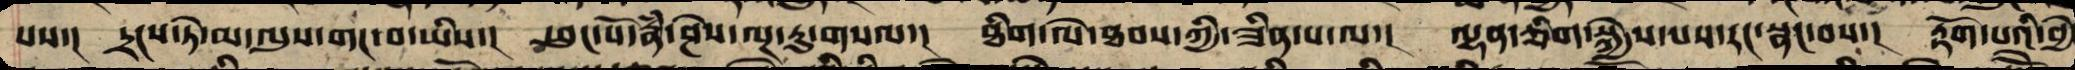པས་། དྲངས་ཏེ་མ་ལུས་གང་བ་ཡིས་། ཕུང་པོ་རྣཾ་ཤེས་ལྔ་རུ་གསལ་། ཐིག་ལེ་ཐབས་ཀྱིས་ཟིན་པ་ལ་། ལྷན་ཅིག་སྐྱེས་པར་རང་སྣང་བས་། རྟོག་པའི་བྱེ
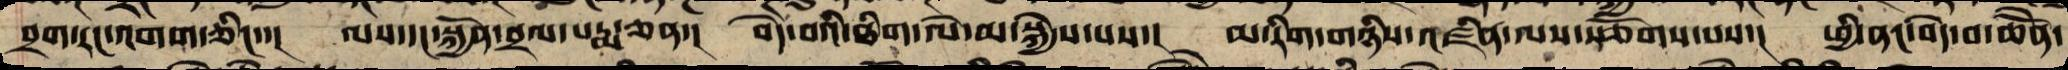བྲག་རང་འགགས་ཤིང་་།  ལས་དང་སྐྱོན་བྲལ་པདྨ་ཅན་།  བདེ་བའི་ཐིག་ལེ་མ་སྐྱེས་པས་།  མ་རིག་གཉིས་འཛིན་ལ་རྩོགས་པའི་།  ཕྱི་ནང་བདེ་བ་ཆེནོ་
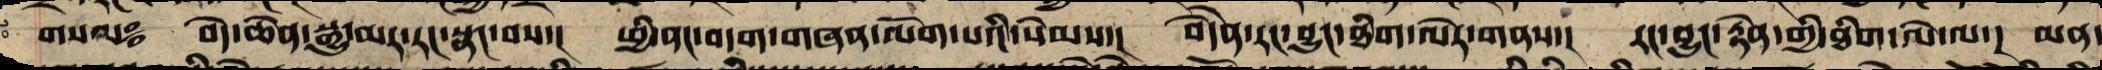གསལ༔  བདེ་ཆེན་སྒྱུ་མར་རང་སྣང་བས་་།  ཕྱི་ནང་བདག་གཞན་ལོག་པའི་སེམས་།  བདེཻན་རང་བྱུང་ཐིག་ལེར་གནས་།  རང་བྱུང་རྟེན་གྱི་ཐིག་ལེ་ལ་།  མན་
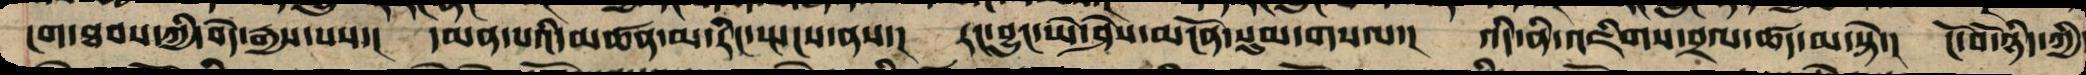ངག་ཐབས་ཀྱི་བདེ་རྒྱས་པས་།  དམན་པའི་མཚན་མ་རིང་སྤངས་ནས་།  རང་བྱུང་ཡེ་ཤེས་མངོན་དུ་གསལ་།  འདི་ནི་འཇིགས་བྲལ་ཚད་མ་སྟེ་།  ངོ་བོ་ཉིད་ཀྱི
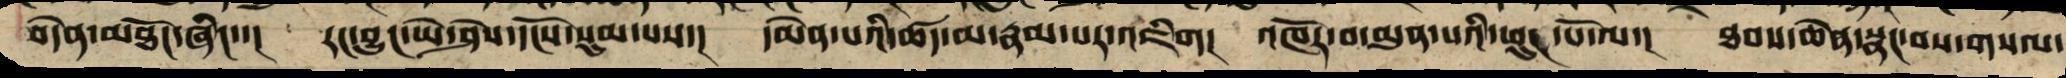བདེན་མཐོང་ཞིང་་།  རང་བྱུང་ཡེ་ཤེས་དངོས་སུམ་པས་།  དམན་པའི་ཚད་མ་རྣམ་པར་འཇིག།  འཁོར་བ་མུན་པའི་ཕུང་པོ་ལ་།  ཐབས་ཆེན་སྣང་བས་གསལ་
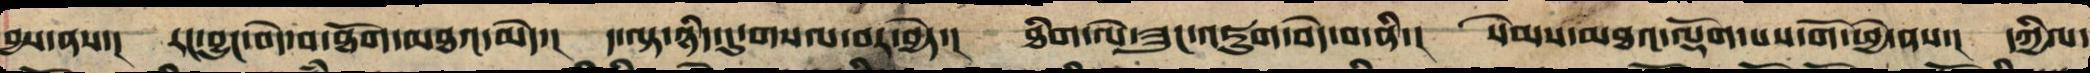བྱས་ནས་། རང་བྱུང་བདེ་བ་ཐོག་མཐའ་མེད་། ད་ལྟ་ཉིད་དུ་གསལ་བར་བྱེད་། ཐིག་ལེ་ཟུང་འཇུག་བདེ་བ་ནི་། སེམས་མཐའ་ལྡོག་པས་གོ་ཕྱེ་ནས་། དཀྱིལ་
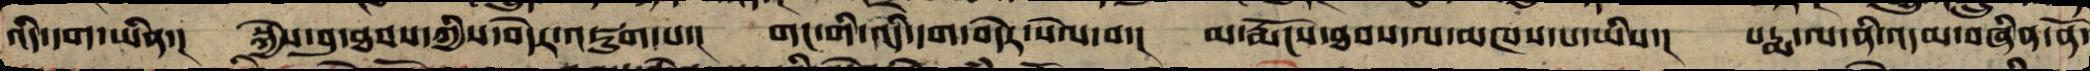འདི་དག་ཡིན་། སྐྱེས་བུ་ཐབས་ཀྱིས་བདེར་འཇུག་པ་། གང་གིས་འདི་དག་བདེར་སེལ་བ་། མ་རྨོངས་ཐབས་ལ་མཁས་པ་ཡིས་། པདྨ་ལ་ནི་འདམ་བཞིན་ནོ་
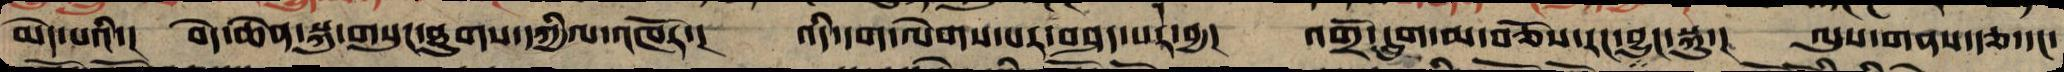མེད་པའི་།  བདེ་ཆེན་སྐུ་གསུང་ཐུགས་དཀྱིལ་འཁོར་།  འདི་དག་ལེགས་པར་བཤད་པར་བྱ་།  འགྲོ་དྲུག་མ་བཅོས་རང་བྱུང་སྐུ་།  ལུས་གནས་རྩ་དང་
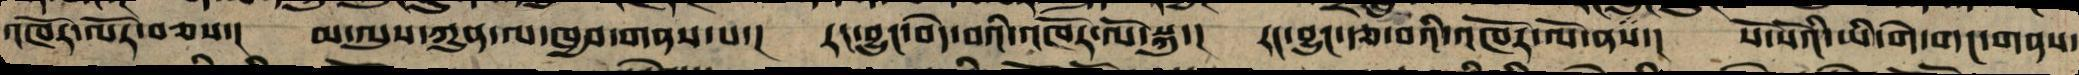འཁོར་ལོར་བཅས་། མ་ལུས་ཀུན་ལ་ཁྱབ་གནས་པ་། རང་བྱུང་བདེ་བའི་འཁོར་ལོའི་སྐུ་། རང་བྱུང་རྩ་ཡི་འཁོར་ལོ་ན་། སོ་སོའི་ཡི་གེ་གང་གནས་
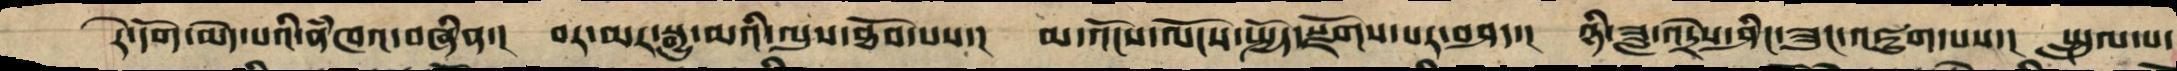རེ་དོགས་མེད་པ་ནཾཁའ་བཞིན་། བར་མར་སྒྱུ་མའི་ལུས་ཐོབ་ནས་། མ་འོངས་ལོངས་སྤྱོད་སྫོགས་པར་བཤད་། ཉི་ཟླ་འདྲེས་ཤིང་ཟུང་འཇུག་པས་། སྤྲུལ་པ་
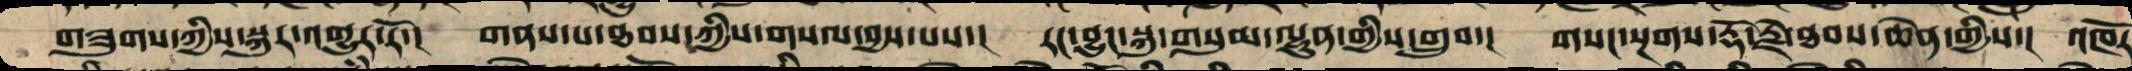གཟུགས་ཀྱི་སྐུར་འགྱུར་རོ་། གནས་པ་ཐབས་ཀྱིས་གསལ་བྱས་པས་། རང་བྱུང་སྐུ་གསུམ་ལྷུན་གྱིས་གྲུབ་། གསང་སྔགས་རྡོ་རྗེ་ཐབས་ཆེན་གྱིས་། འཁོར
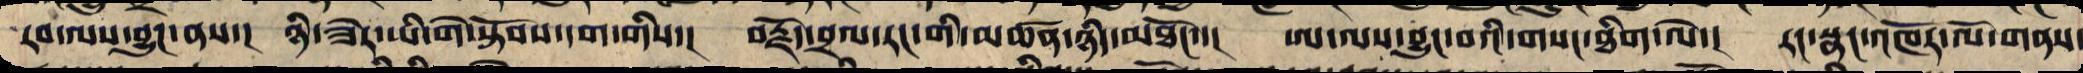རབ་ལས་བྱུང་ནས་། ཉི་ཟེར་ཡི་གེ་སྟོབས་དག་གིས་། བརྗོད་བྲལ་རང་གི་མཚན་ཉིད་མཐོང་་། ཨ་ལས་བྱུང་བའི་གསང་ཐིག་ལེ་། རང་སྣང་འཁོར་ལོར་གནས་
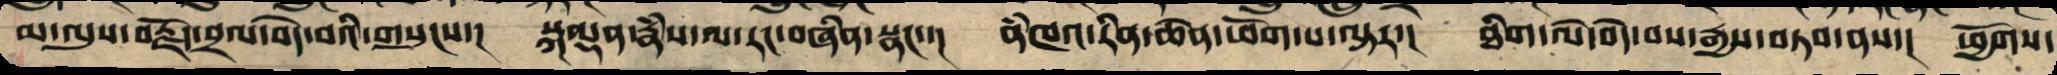མ་ལུས་བརྗོད་བྲལ་བདེ་བའི་གསུངས་། སྐལ་ལྡན་རྣཾས་ལ་རང་བཞིན་སྣང་་། ནཾཁའ་རིན་ཆེན་ཕོག་པ་ལྟར་། ཐིག་ལེ་བདེ་བས་རྒྱས་བཏབ་ནས་། ཕྱོགས་
